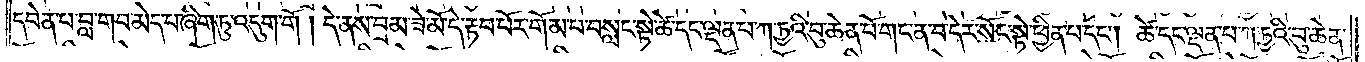དབེན་པ་བླ་གབ་མེད་པ་ཞིག་ཏུ་འདུག་གོ །དེ་ནས་བྲམ་ཟེ་མོ་དེ་རྟབ་པོར་གོམ་པ་བསླང་སྟེ་ཚེ་དང་ལྡན་པ་ཀཏྱའི་བུ་ཆེན་པོ་གང་ན་བ་དེར་སོང་སྟེ་ཕྱིན་པ་དང༌། ཚེ་དང་ལྡན་པ་ཀ་ཏྱའི་བུ་ཆེན་
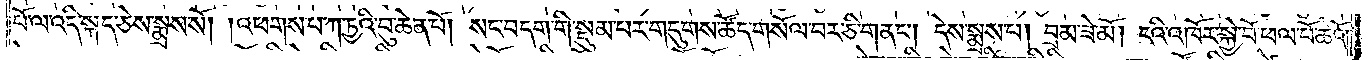པོ་ལ་འདི་སྐད་ཅེས་སྨྲས་སོ། །འཕགས་པ་ཀ་ཏྱའི་བུ་ཆེན་པོ། སང་བདག་གི་སྡུམ་པར་གདུགས་ཚོད་གསོལ་བར་ཅི་གནང༌། དེས་སྨྲས་པ། བྲམ་ཟེ་མོ། ངའི་འཁོར་སྐྱེ་བོ་ཕལ་པོ་ཆེའོ།
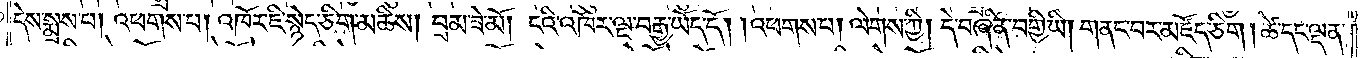དེས་སྨྲས་པ། འཕགས་པ། འཁོར་ཇི་སྙེད་ཅིག་མཆིས། བྲམ་ཟེ་མོ། ངའི་འཁོར་ལྔ་བརྒྱ་ཡོད་དོ། །འཕགས་པ། ལེགས་ཀྱི། དེ་བཞིན་བགྱི་ཡི། གནང་བར་མཛོད་ཅིག །ཚེ་དང་ལྡན་
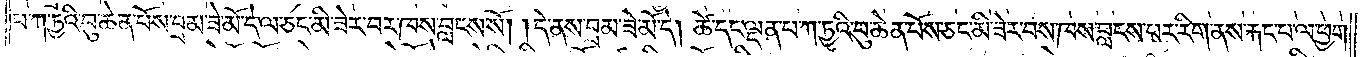པ་ཀ་ཏྱའི་བུ་ཆེན་པོས་བྲམ་ཟེ་མོ་དེ་ལ་ཅང་མི་ཟེར་བར་ཁས་བླངས་སོ། །དེ་ནས་བྲམ་ཟེ་མོ་དེ། ཚེ་དང་ལྡན་པ་ཀ་ཏྱའི་བུ་ཆེན་པོས་ཅང་མི་ཟེར་བས་ཁས་བླངས་པར་རིག་ནས་རྐང་པ་ལ་ཕྱག་
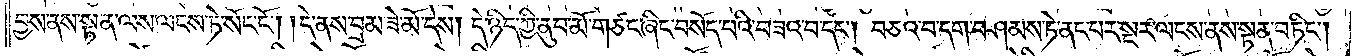བྱས་ནས་སྟན་ལས་ལངས་ཏེ་སོང་ངོ༌། །དེ་ནས་བྲམ་ཟེ་མོ་དེས། དེ་ཉིད་ཀྱི་ནུབ་མོ་གཙང་ཞིང་བསོད་པའི་བཟའ་བ་དང༌། བཅའ་བ་དག་བཤམས་ཏེ་ནང་པར་སྔར་ལངས་ནས་སྟན་བཏིང༌།
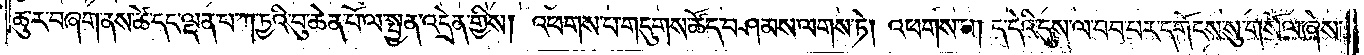ཚུར་བཞག་ནས་ཚེ་དང་ལྡན་པ་ཀ་ཏྱའི་བུ་ཆེན་པོ་ལ་སྤྱན་འདྲེན་གྱིས། འཕགས་པ་གདུགས་ཚོད་བཤམས་ལགས་ཏེ། འཕགས་པ། ད་དེའི་དུས་ལ་བབ་པར་དགོངས་སུ་གསོལ་ཞེས་
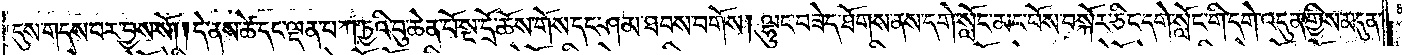དུས་གདས་པར་བྱས་སོ། །དེ་ནས་ཚེ་དང་ལྡན་པ་ཀ་ཏྱའི་བུ་ཆེན་པོ་སྔ་དྲོ་ཆོས་གོས་དང་ཤམ་ཐབས་བགོས། ལྷུང་བཟེད་ཐོགས་ནས་དགེ་སློང་མང་པོས་བསྐོར་ཅིང་དགེ་སློང་གི་དགེ་འདུན་གྱིས་མདུན་
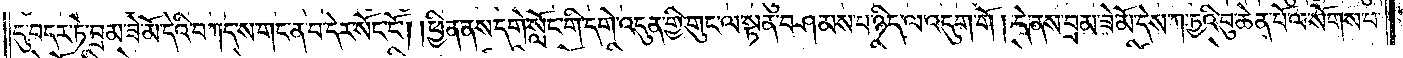དུ་བདར་ཏེ་བྲམ་ཟེ་མོ་དེའི་བཀད་ས་གང་ན་བ་དེར་སོང་ངོ༌། །ཕྱིན་ནས་དགེ་སློང་གི་དགེ་འདུན་གྱི་གུང་ལ་སྟན་བཤམས་པ་ཉིད་ལ་འདུག་གོ །དེ་ནས་བྲམ་ཟེ་མོ་དེས་ཀ་ཏྱའི་བུ་ཆེན་པོ་ལ་སོགས་པ་
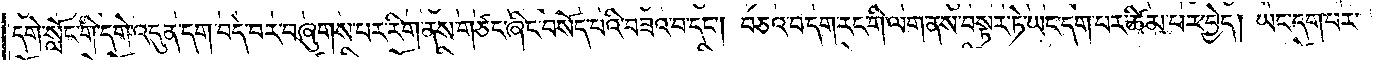དགེ་སློང་གི་དགེ་འདུན་དག་བདེ་བར་བཞུགས་པར་རིག་ནས་གཙང་ཞིང་བསོད་པའི་བཟའ་བ་དང༌། བཅའ་བ་དག་རང་གི་ལག་ནས་བསྟར་ཏེ་ཡང་དག་པར་ཚིམ་པར་བྱེད། ཡང་དག་པར་
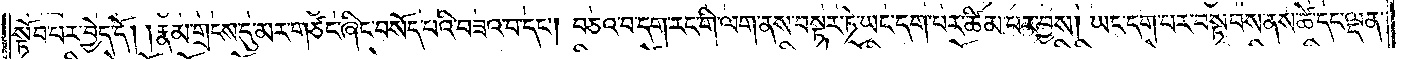སྟོབ་པར་བྱེད་དོ། །རྣམ་གྲངས་དུ་མར་གཙང་ཞིང་བསོད་པའི་བཟའ་བ་དང༌། བཅའ་བ་དག་རང་གི་ལག་ནས་བསྟར་ཏེ་ཡང་དག་པར་ཚིམ་པར་བྱས། ཡང་དག་པར་བསྟབས་ནས་ཚེ་དང་ལྡན་
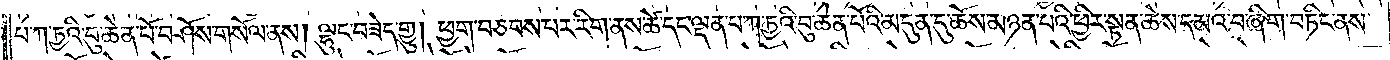པ་ཀ་ཏྱའི་བུ་ཆེན་པོ་བཤོས་གསོལ་ནས། ལྷུང་བཟེད་གྱུ། ཕྱག་བཅབས་པར་རིག་ནས་ཚེ་དང་ལྡན་པ་ཀ་ཏྱའི་བུ་ཆེན་པོའི་མདུན་དུ་ཆོས་མཉན་པའི་ཕྱིར་སྟན་ཆེས་དམའ་བ་ཞིག་བཏིང་ནས་
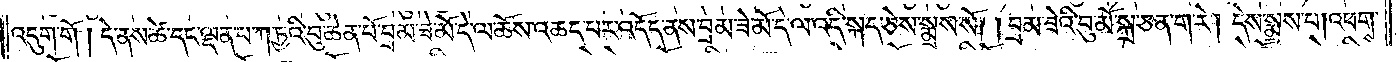འདུག་གོ །དེ་ནས་ཚེ་དང་ལྡན་པ་ཀ་ཏྱའི་བུ་ཆེན་པོ་བྲམ་ཟེ་མོ་དེ་ལ་ཆོས་འཆད་པར་འདོད་ནས་བྲམ་ཟེ་མོ་དེ་ལ་འདི་སྐད་ཅེས་སྨྲས་སོ། །བྲམ་ཟེའི་བུ་མོ་སྐྲ་ཅན་ག་རེ། དེས་སྨྲས་པ། འཕགས་
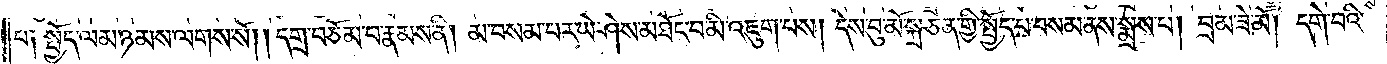པ༑ སྤྱོད་ལམ་ཉམས་ལགས་སོ། །དགྲ་བཅོམ་པ་རྣམས་ནི། མ་བསམ་པར་ཡེ་ཤེས་མཐོང་བ་མི་འཇུག་པས། དེས་བུ་མོ་སྐྲ་ཅན་གྱི་སྤྱོད་པ་བསམ་ནས་སྨྲས་པ། བྲམ་ཟེ་མོ། དགེ་བའི་
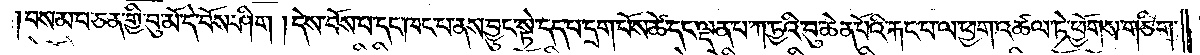བསམ་པ་ཅན་གྱི་བུ་མོ་དེ་བོས་ཤིག །དེས་བོས་པ་དང་ཁང་པ་ནས་བྱུང་སྟེ་དད་པ་དྲག་པོས་ཚེ་དང་ལྡན་པ་ཀ་ཏྱའི་བུ་ཆེན་པོའི་རྐང་པ་ལ་ཕྱག་འཚལ་ཏེ་ཕྱོགས་གཅིག་
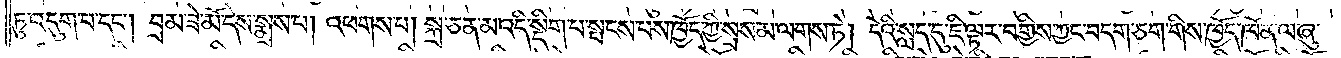ཏུ་འདུག་པ་དང༌། བྲམ་ཟེ་མོ་དེས་སྨྲས་པ། འཕགས་པ། སྐྲ་ཅན་མ་འདི་སྡིག་པ་སྤངས་པས་ཁྱོད་ཀྱི་སྲས་མ་ལགས་ཏེ། དེའི་སླད་དུ་ཇི་ལྟར་བགྱིས་ཀྱང་བདག་ཅག་གིས་ཁྱོད་ཁོ་ན་ལ་ཞུ་
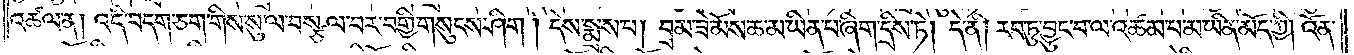འཚལ་ན། འདི་བདག་ཅག་གིས་སུ་ལ་བསྩལ་བར་བགྱི་གསུངས་ཤིག །དེས་སྨྲས་པ། བྲམ་ཟེ་མོས་ཆ་མ་ཡིན་པ་ཞིག་དྲིས་ཏེ། དེ་ནི། རབ་ཏུ་བྱུང་བ་ལ་འཚམ་པ་མ་ཡིན་མོད་ཀྱི། འོན་
